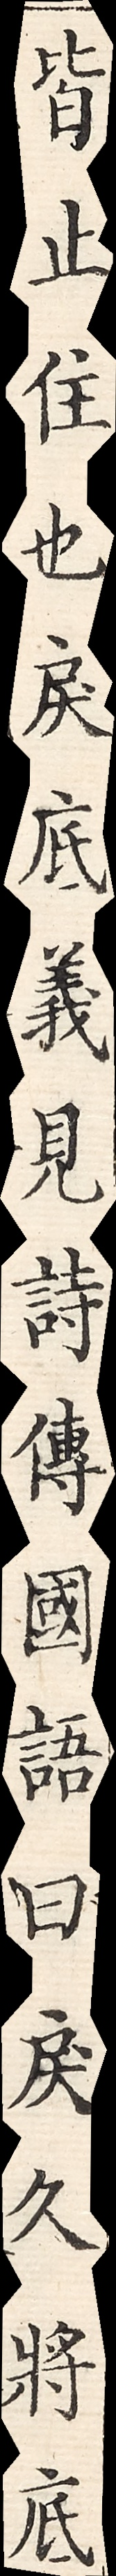皆止住也戾底義見詩傳國語曰戾久將底
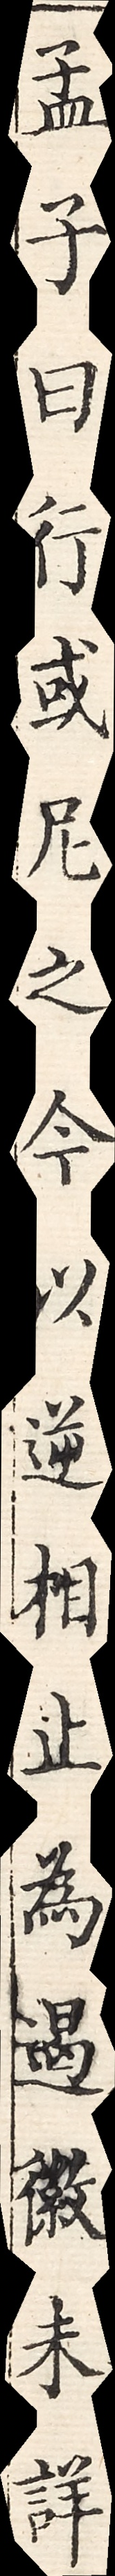孟子曰行或尼之今以逆相止為遇徽未詳
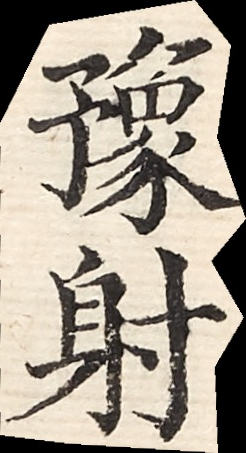豫射
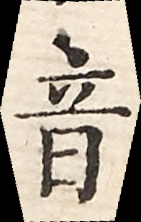音
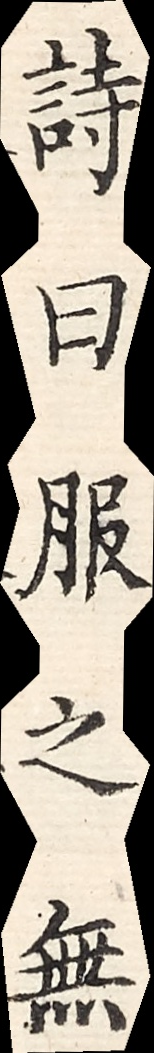詩曰服之無
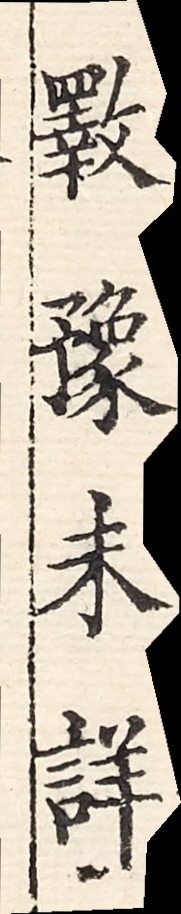斁豫未詳
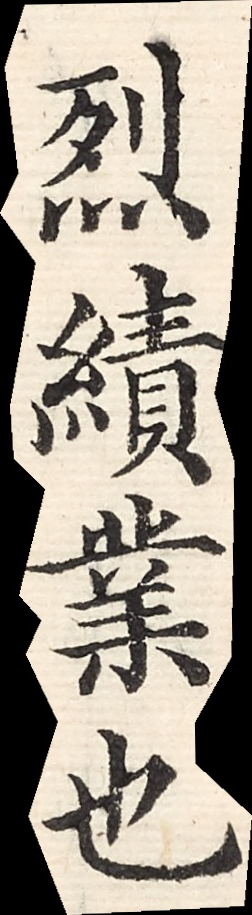烈績業也
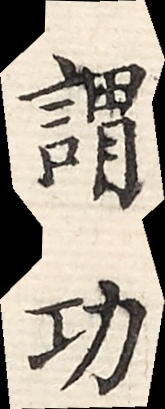謂功
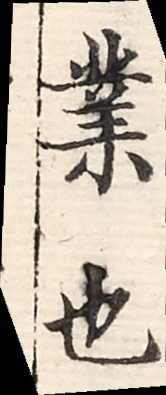業也
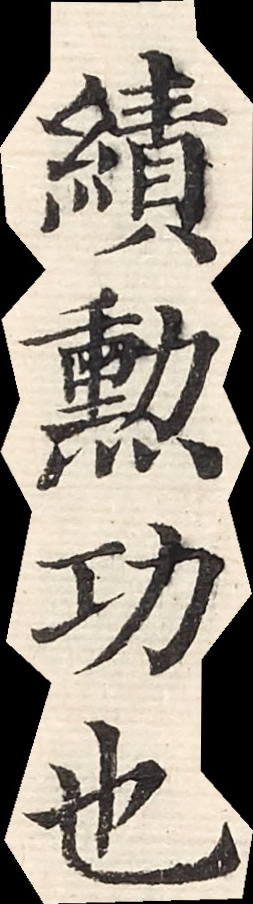績勳功也
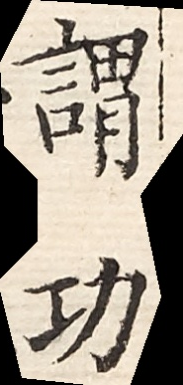謂功
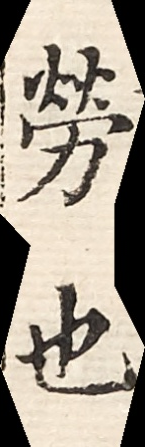勞也
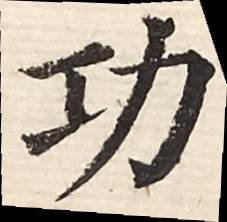功
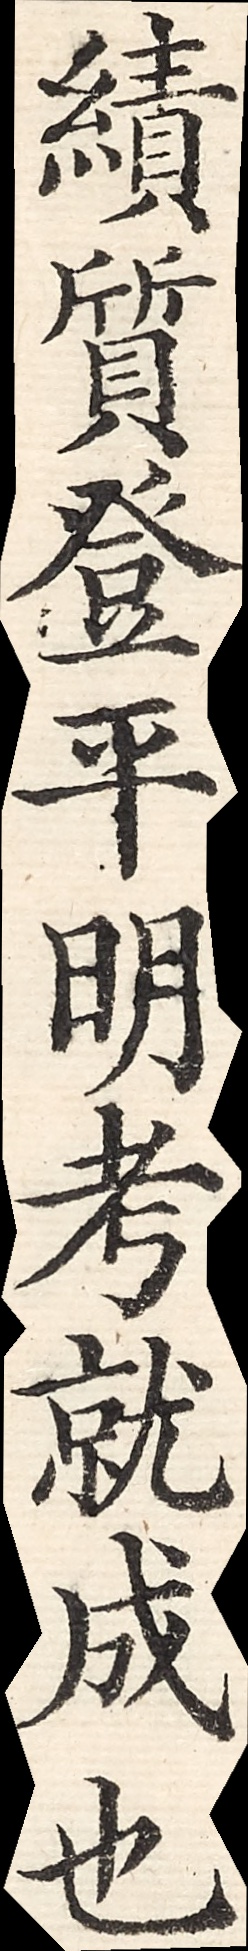績質登平明考就成也
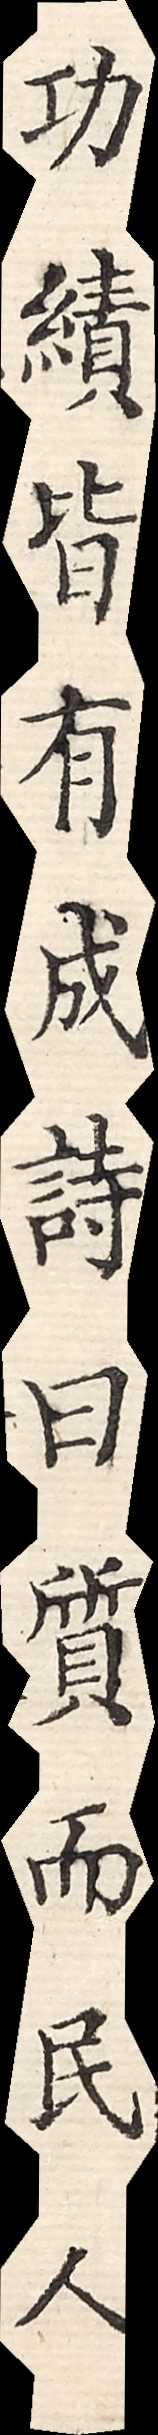功績皆有成詩曰質而民人
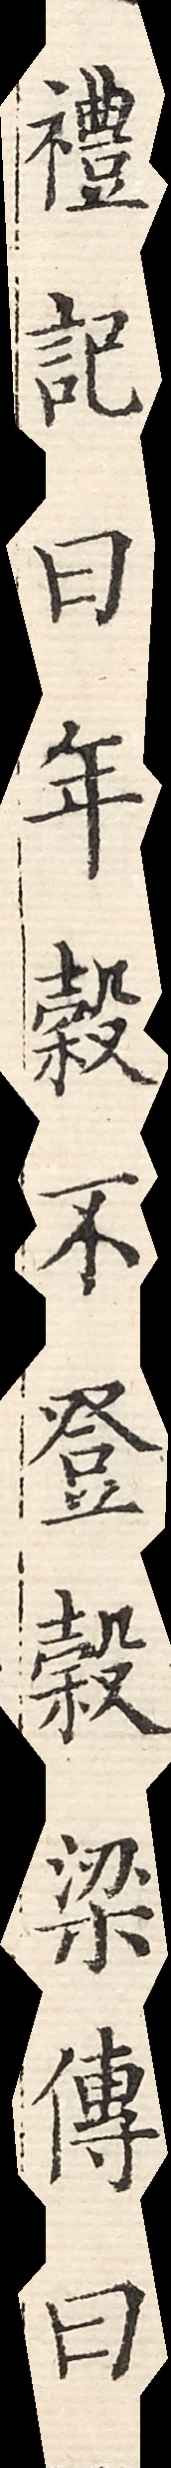禮記曰年穀不登穀梁傳曰
